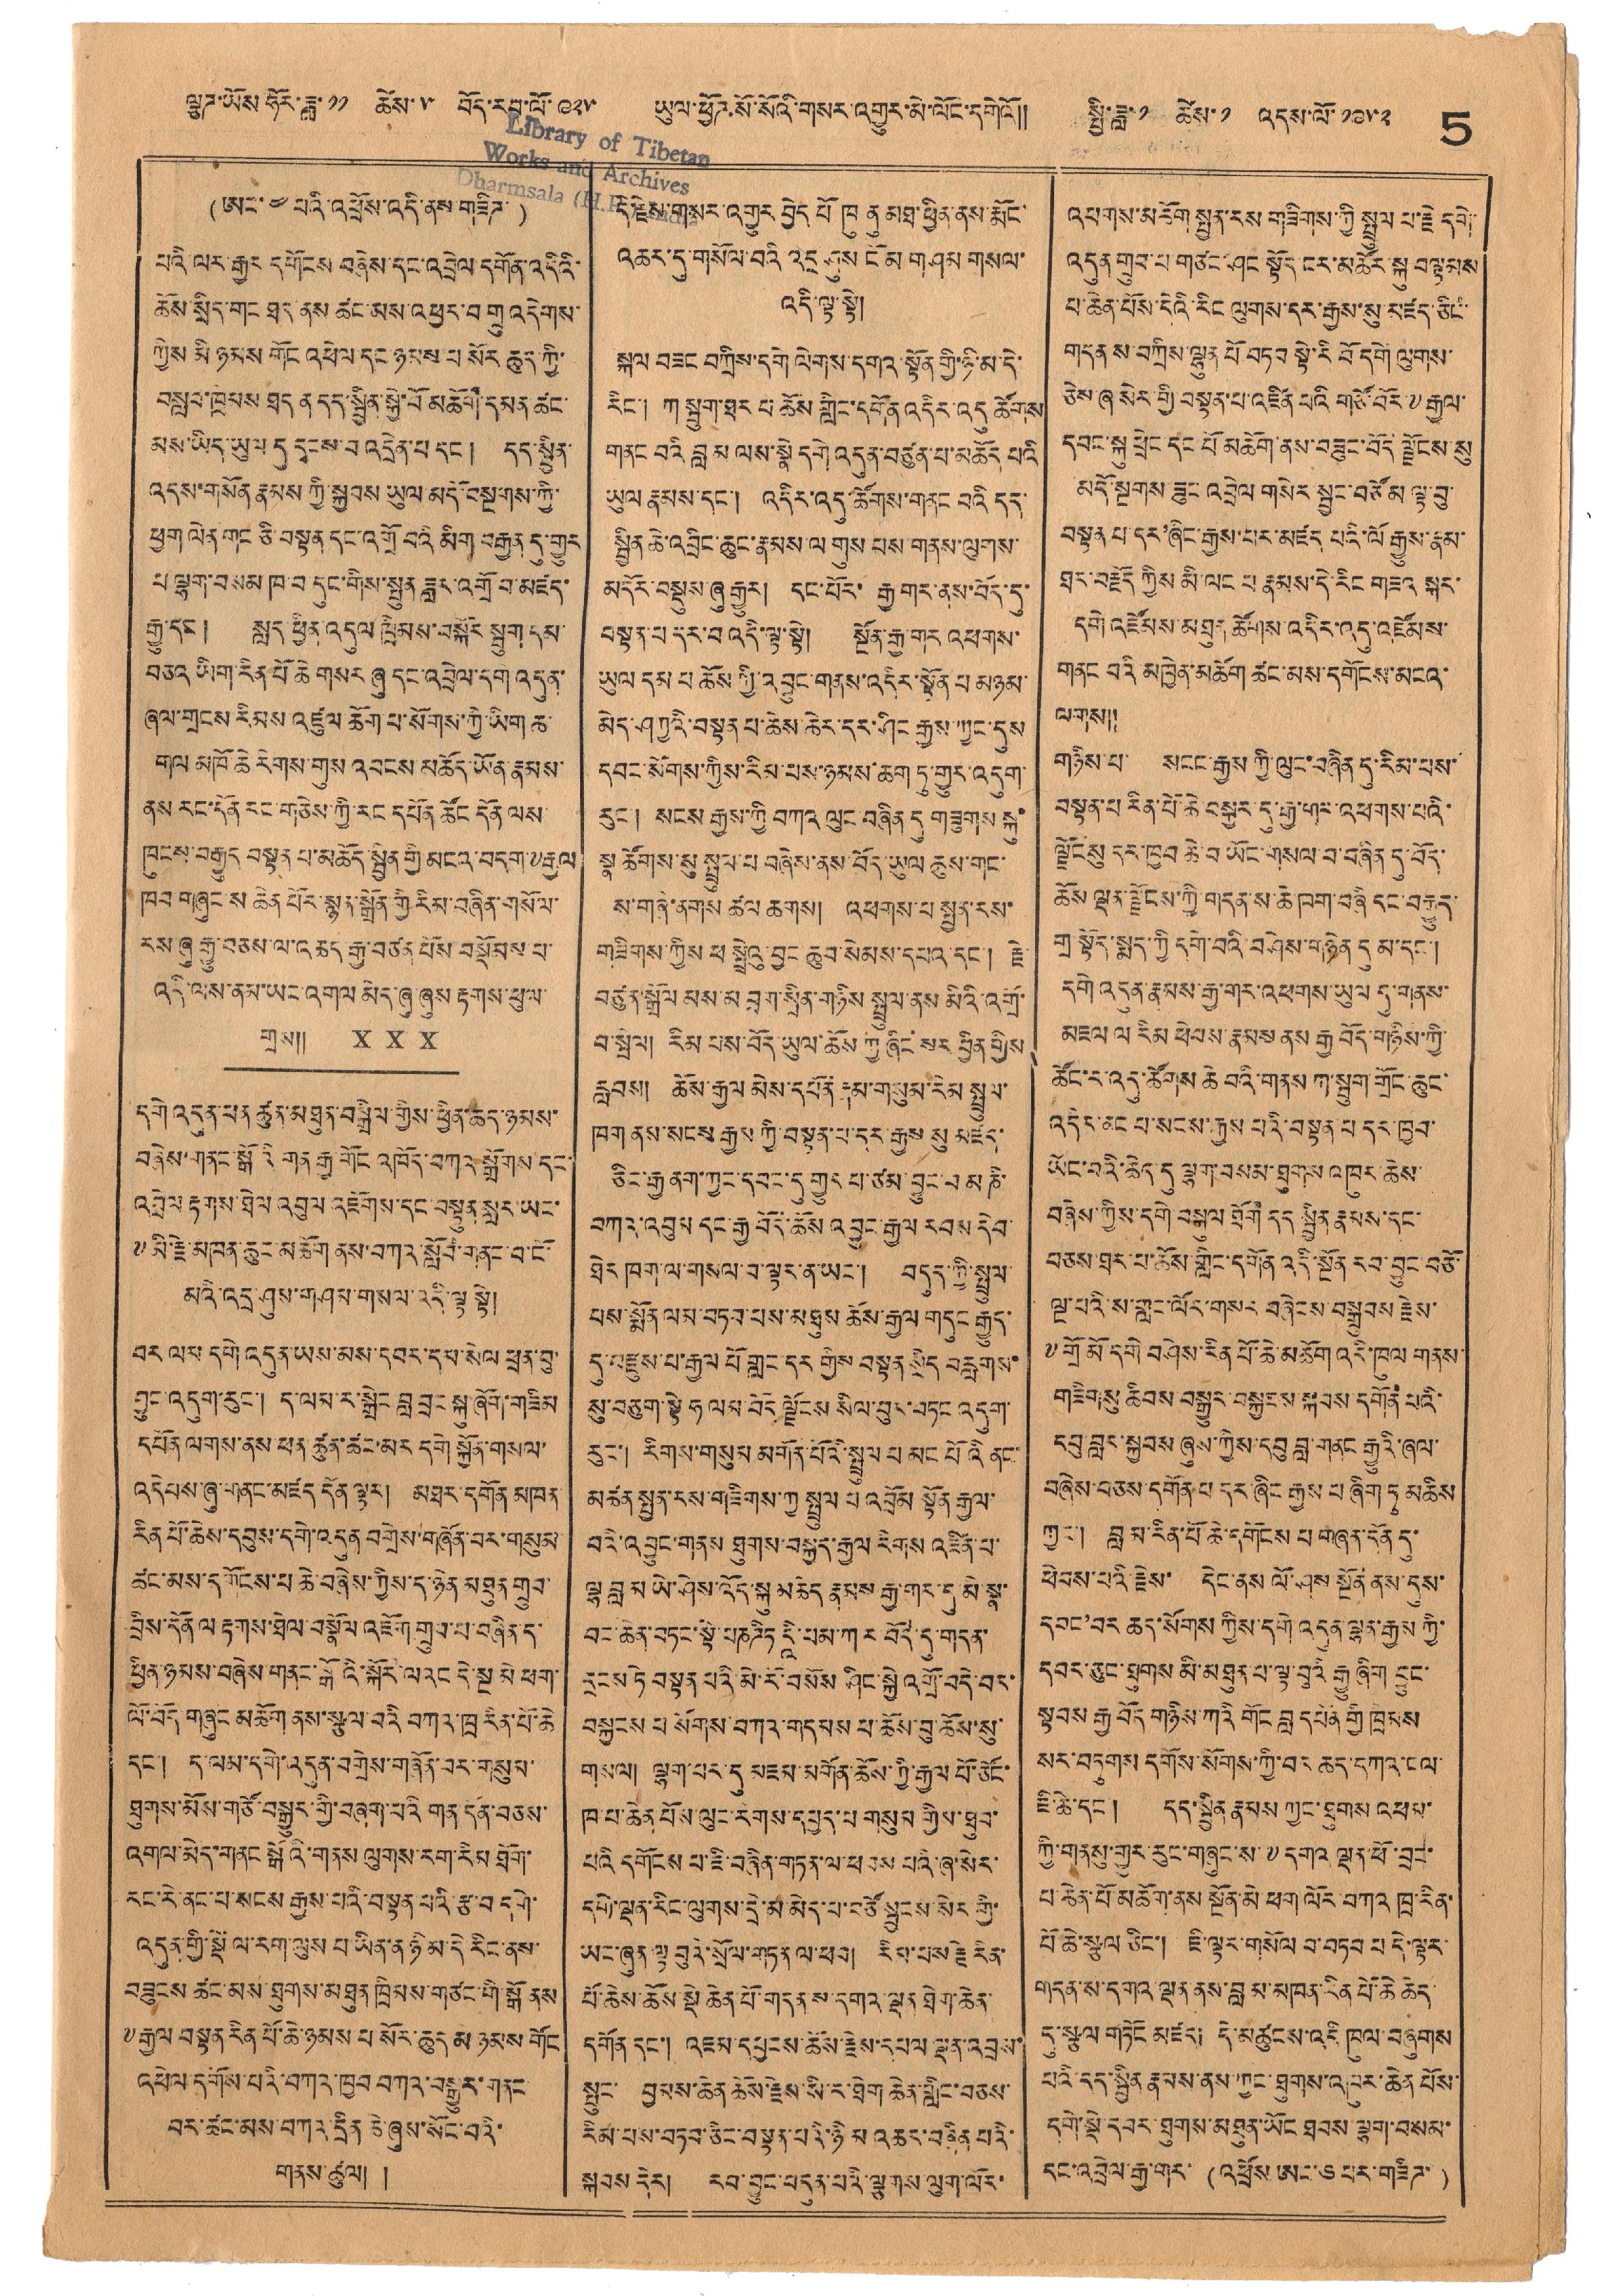ལྕཊ་ཡོས་ཧོར་ཟླ་ ༡༡ ཚེས་ ༥ བོད་རབ་པོ་ ༩༢༥ ཡུལ་ཕྱོཊ་སོ་སོའི་གསར་འགྱུར་མི་ལོང་དགེའོ།། སྤྱི་ཟླ་ ༡ ཚེས་ ༡ འདས་ལོ་ ༡༩༥༢ 5
(ཨང་ ༤ པའི་འཕྲོས་འདི་ནས་གཟིཊ་)
པའི་པར་རྒྱར དགོངས བཞེས་དང་འབྲེལ དགོན་འདིའི་
ཆོས་སྲིད་གང ཐད་ནས་ཚང་མས་འཕྱར་བགྲུ འདེགས་
ཀྱེས མི ཉམས་གོང འཕེལ དང་ཉམས་པ སོར་ཆུད་ཀྱི་
བསླབ་ཁྲིམས ཐད ན དད་སྦྱིན་སྐྱེ་བོ མཆོག་དམན་ཚང་
མས་ཡིད་ཡུལ དུ་དྭངས་བ འདྲེན་པ་དང་། དད་སྦྱིན་
འདས་གསོན་རྣམས ཀྱི་སྐྱབས་ཡུལ་མདོ་བསྔགས་ཀྱི་
ཕྱག ལེན གང་ཅི་བསྟན དང་འགྲོ བའི་མིག་བརྒྱན དུ་གྱུར་
པ་ལྷག་བསམ་ཁ་བ་དུང་གིས་སྤུན ཟླར་འགྲོ བ་མཛད་
རྒྱུ་དང་། སླད་ཕྱིན འདུལ་ཁྲིམས་བསྐོར སྦུག་དམ་
བཅའ ཡིག་རིན་པོ ཆེ་གསར་ཞུ དང་འབྲེལ་དགེ འདུན་
ཞལ་གྲངས རིམས་འཛུལ་ཆོག་པ་སོགས་ཀྱི་ཡིག ཆ་
གལ མཁོ་ཆེ རིགས་གུས་འབངས་མཆོད་ཡོན་རྣམས་
ནས རང་དོན་རང་གཅེས་གྱི་རང དཔོན་ཚོང དོན་ལས་
ཁུངས་བརྒྱུད བསྟན པ་མཆོད་སྦྱིན་གྱི མངའ་བདག་༸རྒྱལ་
ཁབ་གཞུང་ས་ཆེན པོར་སྙན་སྒྲོན་གྱི རིམ་བཞིན་གསོལ་
རས་ཞུ་རྒྱུ་བཅས་ལ་འཆད རྒྱ་བཙན པོས བསྡོམས་པ་
འདི་ལས་ནམ་ཡང་འགལ མེད་ཞུ་ཞུས་རྟགས་ཕུལ་
གྲས།། X X X
དགེ འདུན་ཕན་ཚུན་མཐུན་བསྒྲིལ་གྱིས་ཕྱིན་ཆད་ཉམས་
བཞེས་གནང་སྒོའི གན རྒྱ་གོང འཁོད་བཀའ་སྒྲོགས་དང་
འབྲེལ རྟགས་ཐེལ འབུལ་འཇོགས་དང་བསྟུན་སླར ཡང་
༸མི་རྗེ་མཁན་ཆུང་མཆོག ནས་བཀའ་སློབ་གནང་བ་ངོ་
མའི་འདྲ་ཤུས་གཤམ་གསལ་འདི་ལྟ་སྟེ།
བར་ལམ དགེ་འདུན་ཡས་མས་དབར་དམ་སེལ ཕྲན་བུ་
བྱུང་འདུག་རུང་། ད་ལམ་ར་སྒྲེང་བླ་བྲང་སྐུ་ཞོག་གཟིམ་
དཔོན་ལགས་ནས་ཕན་ཚུན་ཚང་མར་དགེ སྐྱོང་གསལ་
འདེབས་ཞུས་གནང་མཛད དོན ལྟར། མཐར་དགོན མཁན་
རིན་པོ་ཆེས་དབུས་དགེ་འདུན་བགྲེས་གཞོན་བར་གསུམ་
ཚང་མས་དགོངས་པ ཆེ་བཞེས་ཀྱིས་ད་ཉིན་མཐུན་གྲུབ་
བྲིས་དོན་ལ་རྟགས་ཐེལ་བསྣོལ་འཇོག་གྲུབ་པ་བཞིན་ད་
ཕྱིན་ཉམས་བཞེས་གནང་སྒོའི་སྐོར་ལའང དེ་སྔ་མེ ཕག་
ལོ་བོད་གཞུང མཆོག ནས་རྩལ་བའི བཀའ་ཁྲ རིན་པོ་ཆེ་
དང་། ད་ལམ་དགེ་འདུན་བགྲེས་གཞོན་བར་གསུམ།
ཐུགས་མོས་གཙོ་བསྒྱུར་གྱི་བཞག་པའི གན དོན་བཅས་
འགལ་མེད་གནང་སྒོའི་གནས ལུགས་རག་རིམ་ཐོག་
རང་རེ་ནང་པ་སངས་རྒྱས་པའི་བསྟན་པའི་རྩ་བ་དགེ་
འདུན་གྱི་སྡེ་ལ་རག་ལུས པ་ཡིན་ན ཉི་མ་དེ རེང་ནས་
བཟུངས་ཚང་མས་ཐུགས་མཐུན་ཁྲིམས་གཙང་གི་སྒོ ནས་
༸རྒྱལ་བསྟན་རིན་པོ་ཆེ་ཉམས་པ སོར་ཆུད་མ་ཉམས གོང་
འཕེལ་དགོས་པའི་བཀའ་ཁྱབ་བཀའ་བསྒྱུར་གནང་
བར་ཚང་མས་བཀའ་དྲིན་ཆེ་ཞུས་སོང་བའི་
གནས་ཚུལ། །
དེ་རྗེས་གསང་འགྱུར་བྱེད་པོ་ཁུ ནུ མཐ་ཕྱིན་ནས་རྨོང་
འཆར་དུ་གསོལ་བའི་འདྲ་ཤུས་ངོ་མ་གཤམ་གསལ་
འདི་ལྟ་སྟེ།
སྐལ་བཟང་བཀྲིས་དགེ་ལེགས་དགའ་སྟོན་གྱི་ཉི་མ་དེ་
རིང་། ཀ་སྦུག་ཐར་པ་ཆོས་གླིང་དགོན་འདིར་འདུ་ཚོགས
གནང བའི བླ མ ལས་སྣེ དགེ འདུན་བཙུན་པ་མཆོད པའི་
ཡུལ རྣམས་དང་། འདིར་འདུ་ཚོགས་གནང བའི དད་
སྦྱིན་ཆེ་འབྲིང་ཆུང་རྣམས་ལ་གུས་པས་གནས་ལུགས་
མདོར་བསྡུས་ཞུ་རྒྱུར། དང་པོར་ རྒྱ་གར་ནས་བོད་དུ་
བསྟན་པ་དར་བ འདི་ལྟ་སྟེ། སྔོན་རྒྱ་གར འཕགས་
ཡུལ དམ་པ ཆོས ཀྱི་འབྱུང་གནས་འདིར་སྟོན་པ མཉམ་
མེད་ཤཀྱའི་བསྟན་པ་ཆེས་ཆེར་དར་ཤིང་རྒྱས་ཀྱང་དུས་
དབང་སོགས་ཀྱིས་རིམ་པས་ཉམས་ཆག་ཏུ་གྱུར་འདུག་
རུང་། སངས རྒྱས་ཀྱི བཀའ ལུང བཞིན དུ གཟུགས སྐུ་
སྣ ཚོགས་སུ་སྤྲུལ་པ བཞེས་ནས་བོད་ཡུལ་ཆུས་གང་
ས་གཞི་ནགས ཚལ ཆགས། འཕགས་པ སྤྱན་རས་
གཟིགས་ཀྱིས་ཕ སྤྲེའུ་བྱང་ཆུབ་སེམས་དཔའ་དང་། རྗེ་
བཙུན་སྒྲོལ མས་མ་བྲག་སྲིན་གཉིས སྤྲུལ་ནས མིའི་འགྲོ་
བ་སྤེལ། རིན་པས་བོད་ཡུལ་ཆོས ཀྱི ཞིང་སར བྱིན གྱིས
རླབས། ཆོས་རྒྱལ་མེས་དཔོན་རྣམ་གསུམ་རིམ སྤྲུལ་
ཁག ནས་སངས་རྒྱས ཀྱི་བསྟན་པ་དར་རྒྱས སུ་མཛད་
ཅིང་རྒྱ ནག་ཀྱང་དབང་དུ་གྱུར་པ་ཙམ་བྱུང་བ་མ་ཎི་
བཀའ་འབུམ དང་རྒྱ བོད་ཆོས འབྱུང་རྒྱལ་རབས དེབ་
ཐེར ཁག་ལ་གསལ་བ་ལྟར་ན་ཡང་། བདུད་ཀྱི་སྤུལ་
པས་སྨོན་ལམ་བཏབ་པས་མཐུས ཆོས་རྒྱས་གདུང་རྒྱུད་
དུ་བརྫུས་པ་རྒྱལ་པོ གླང་དར་གྱིས་བསྟན་སྲིད བབླགས་
སུ་བཅུག་སྟེ ཧ ལམ་བོད ལྗོངས སིལ་བུར་བཏང་འདུག་
རུང་། རིགས་གསུམ མགོན་པོའི་སྤྲུལ་པ་མང པའི ནང་
མཚན སྤྱན་རས་གཟིགས་ཀྱ སྤྲུལ པ འབྲོམ སྟོན རྒྱལ་
བའི་འབྱུང་གནས་ཐུགས་བསྐྱད་རྒྱལ་རིགས འཛིན་པ་
ལྷ བླ ་མ ཡེ་ཤེས་འོད་སྐུ་མཆེད རྣམས་རྒྱ་གར་དུ མི་སྣ་
བང་ཆེན་བཏང་སྟེ་པཎཌིཏ དཱི་པམ་ཀ ར བོད་དུ་གདན་
དྲངས ཏེ བསྟན པའི མེ་རོ་བསོས ཤིང་སྐྱེ འགྲོ་བདེ་བར་
བསྐྱངས པ སོགས་བཀའ་གདམས པ་ཆོས་བུ་ཆོས་སུ་
གསལ། ལྷག་པར་དུ མཇལ་མགོན་ཆོས་ཀྱི་རྒྱལ པོ་ཅོང་
ཁ་པ་ཆེན་པོས་ལུང་རིགས་དཔྱད་པ་གསུམ་གྱིས་ཐུབ་
པའི དགོངས པ་ཇི་བཞིན་གཏམ་ལ་ཕབས པའི་ཞ་སེར་
དགེ་ལྡན་རིང་ལུངས་དྲེ་མ་མེད་པ་བཙོ་སྦུངས་སེར་གྱི་
ཡང་ཞུན་ལྟ་བུའི་སྲོལ་གཏན་ལ་ཕབ། རིམ་པས་རྗེ རིན་
པོ་ཆེས་ཆོས་སྡེ ཆེན་པོ་གདན་ས་དགའ་ལྡན ཐེག་ཆེན་
དགོན་དང་། འཇམ་དབྱངས་ཆོས་རྗེས་དཔལ་ལྡན་འབྲས་
སྤུང་ བྱམས་ཆེན་ཆོས་རྗེས་སི་ར་ཐེག་ཆེན་གླིང་བཅས་
རིམ་པས་བཏབ་ཅིང་བསྟན་པའི་ཉི་མ་འཆར་བཞིན་པའི་
སྐབས་དེར། རབ་བྱུང་བདུན་པའི་ལྕགས་ལུག་ལོར་
འཕགས་མཆོག་སྤྱན་རས་གཟིགས་ཀྱི སྤྲུལ པ་རྗེ དགེ་
འདུན་གྲུབ་པ་གཙང་ཤང་སྟོད་ངར་མཚོར་སྐུ་བལྟམས་
པ་ཆེན་པོས་དེའི་རིང་ལུགས་དར་རྒྱས་སུ་མཛད་ཅིང་
གདན་ས་བཀྲིས་ལྷུན་པོ བཏབ སྟེ་རི་བོ་དགེ་ལུགས་
ཅེས་ཞ་སེར་གྱི་བསྟན་པ་འཛིན་པའི་གཙོ་བོར་༸རྒྱལ་
དབང་སྐུ་ཕྲེང དང པོ མཆོག་ནས་བཟུང་བོད་ལྗོངས་སུ་
མདོ་སྔགས་ཟུང་འབྲེལ་གསེར་སྦྱང་བཙོམ ལྟ་བུ་
བསྟན་པ་དར'ཞིང་རྒྱས་པར་མཛད པའི་ལོ་རྒྱུས་རྣམ་
ཐར་བརྗོད ཀྱིས མི་ལང་པ རྣམས་དེ་རིང་གཟའ སྐར་
དགེ འཛོམས་མཐུན ཚོགས་འདིར་འདུ་འཛོམས་
གནང བའི་མཁྱེན་མཆོག ཚང་མས་དགོངས་མངའ་
ལགས།།
གཉིས་པ་ སངས་རྒྱས་ཀྱི་ལུང་བཞིན་དུ་རིམ་པས་
བསྟན་པ་རིན་པོ་ཆེ་བསྐྱར་དུ་རྒྱ་གར་འཕགས་པའི་
ལྗོངསུ དར་ཁྱབ ཆེ་བ་ཡོང་གསལ་བ་བཞིན་དུ་བོད་
ཆོས ལྡན་ལྗོངས་ཀྱི་གདན་ས་ཆེ་ཁག་བཞི དང་བརྒྱུད་
གྲ་སྟོད་སྨད་ཀྱི་དགེ་བའི་བཤེས་གཉེན་དུ མ་དང་།
དགེ་འདུན་རྣམས་རྒྱ་གར་འཕགས་ཡུལ དུ་གནས་
མཇལ ལ རིམ ཕེབས་རྣམས་ནས རྒྱ བོད་གཉིས་ཀྱི་
ཚོང་ར་འདུ་ཚོགས ཆེ བའི་གནས ཀ་སྦུག་གྲོང་ཆུང་
འདིར་ནང་པ་སངས་རྒྱས་པའི་བསྟན་པ་དར་ཁྱབ་
ཡོང་བའི་ཆེད་དུ་ལྷག་བསམ་ཐུགས་འཁུར་ཆེས་
བཞེས་ཀྱིས་དགེ་བསྐུལ་ཐོག་དད་དབྱིན་རྣམས་དང་
བཅས་ཐར་པ་ཆོས་གླིང་དགོན་འདི་སྔོན་རབ་བྱུང བཅོ་
ལྔ་པའི་ས་གླང་ལོར་གསར་བཞེངས་བསྒྲུབས་རྗེས་
༸གྲོ་མོ དགེ བཤེས་རིན་པོ་ཆེ་མཆོག འདི་ཁུལ གནས་
གཟིགསུ ཆིབས་བསྒྱུར་བསྐྱར་བསྐྱངས་སྐབས་དགོན་པའི་
དབུ་བླང་སྐྱབས་ཞུས་ཀྱེས་དབུ་བླ་གནང རྒྱུའི་ཞལ་
བཞེས་བཅས་དགོན་པ་དར་ཞིང་རྒྱས པ་ཞིག་ཏུ་མཆིས
ཀྱང་། བླ་མ་རིན་པོ་ཆེ་དགོངས་པ་གཞན་དོན་དུ་
ཕེབས་པའི་རྗེས་ དེང་ནས ལོ་ཤས་སྔོན་ནས་དུས་
དབང'བར ཆད་སོགས་ཀྱིས་དགེ་འདུན་ལྷན་རྒྱས་ཀྱི་
དབར་ཅུང་ཐུགས་མི་མཐུན་པ་ལྟ་བུའི་རྒྱུ་ཞིག བྱུང་
སྟབས རྒྱ བོད གཉིས་ཀའི གོང་བླ་དཔོན་གྱི ཁྲིམས་
སར་བཏུགས་དགོས་སོགས་ཀྱི་བར ཆད་དཀའ་ངལ་
ཇི་ཆེ་དང་། དད་སྦྱིན་རྣམས་ཀྱང་ཐུགས འཕམ་
ཀྱི་གནམ་གྱུར་རུང་གཞུང་ས་༸དགའ་ལྡན་ཕོ་བྲང་
པ་ཆེན་པོ་མཆོག་ནས་སྔོན་མེ་ཕག་ལོར་བཀའ་ཁྲ་རིན་
པོ་ཆེ་སྩལ ཅིང་། ཇི་ལྟར་གསོལ་བ་བཏབ་པ་དེ་ལྟར་
གདན་ས་དགའ་ལྡན་ནས་བླ་མ་མཁན་རིན་པོ་ཆེ་ཆེད་
དུ་སྩལ་གཏོང་མཛད། དེ་མཚུངས་འདི་ཁུལ་བཞུགས་
པའི་དད་སྦྱིན རྣམས་ནས་ཀྱང་ཐུགས་འཁུར་ཆེན་པོས་
དེག་སྡེ་དབང་ཐུགས་མཐུན་ཡོང ཐབས་ལྷག་བསམ་
དང་འབྲེལ་རྒྱ་གར་ (འཕྲོས་ཨང་༦ པར་གཟིཊ་)
